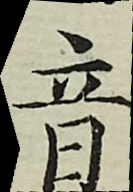音
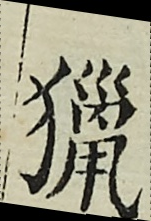獵
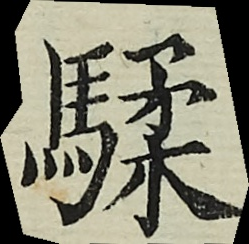騥
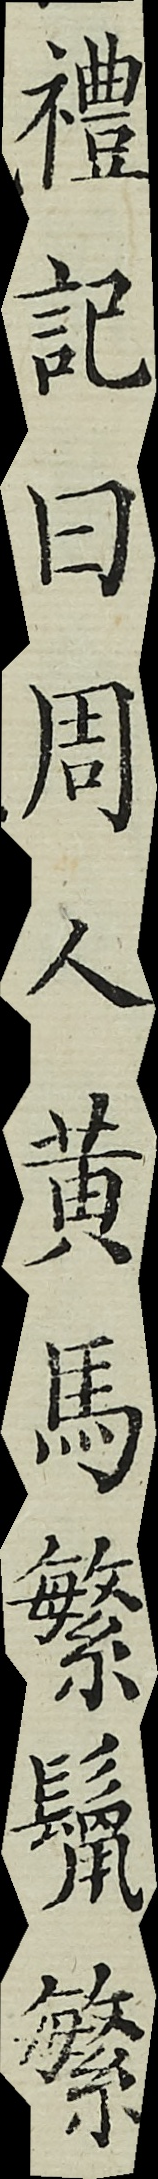禮記曰周人黃馬繁鬣繁
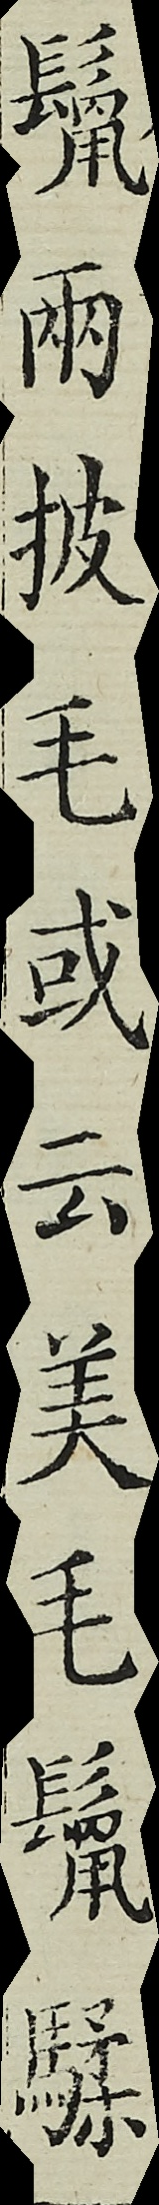鬣兩披毛或云美毛鬣騥
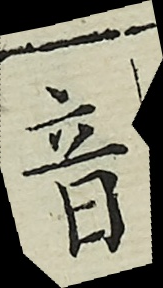音
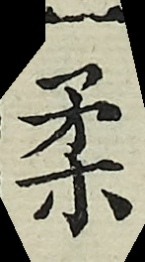柔
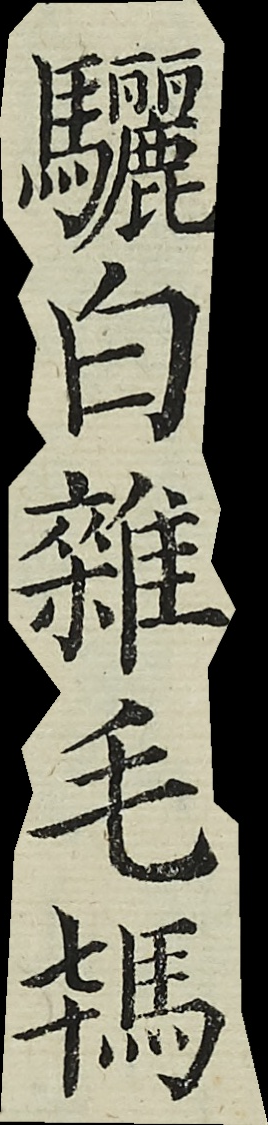驪白雜毛駂
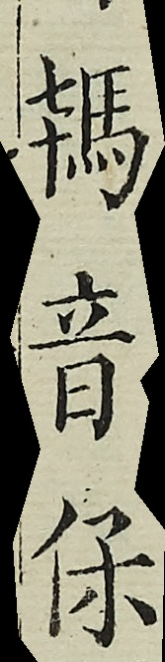駂音保
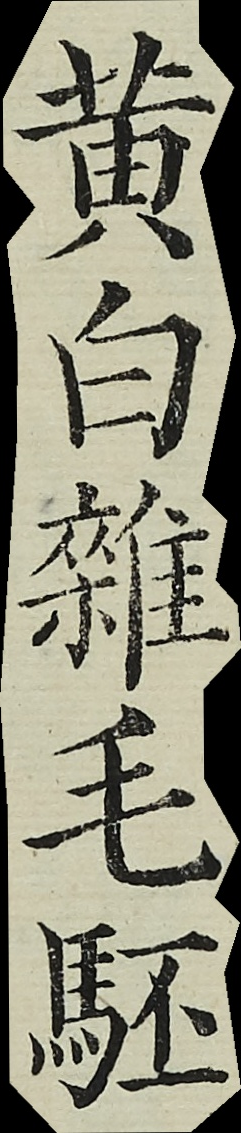黃白雜毛駓
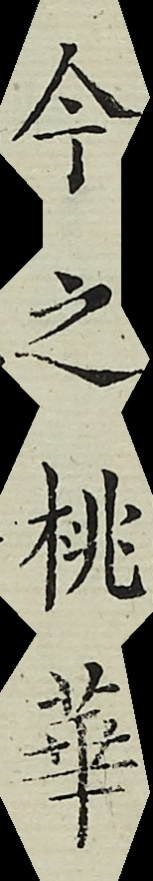今之桃華
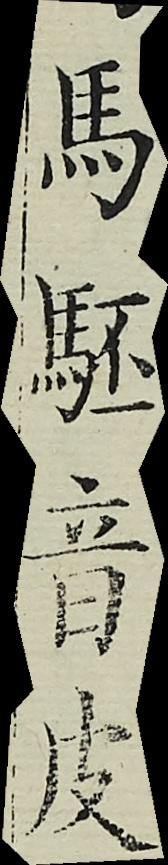馬駓音皮
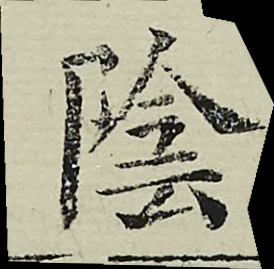陰
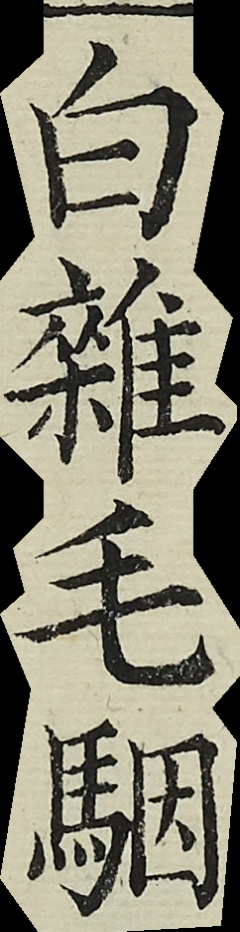白雜毛駰
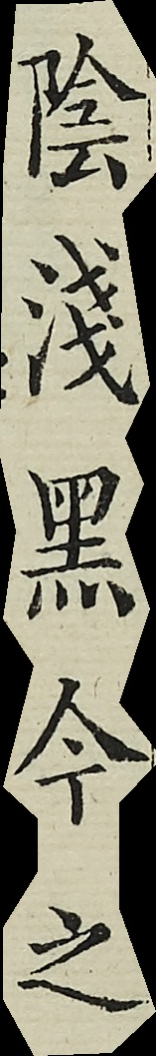陰淺黑今之
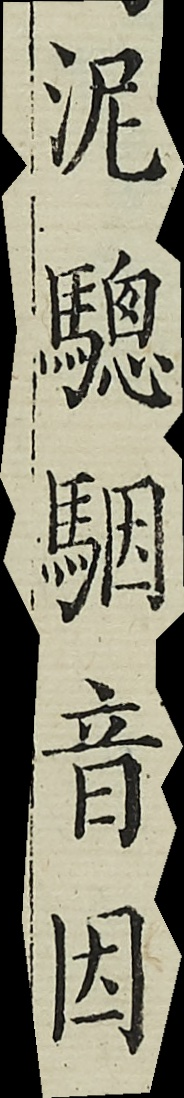泥驄駰音因
